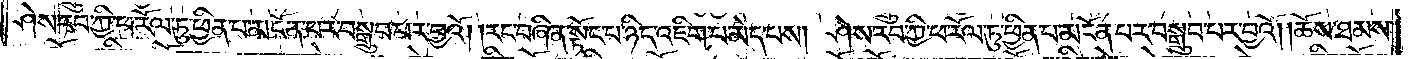ཤེས་རབ་ཀྱི་ཕ་རོལ་ཏུ་ཕྱིན་པ་མངོན་པར་བསྒྲུབ་པར་བྱའོ། །རང་བཞིན་སྟོང་པ་ཉིད་འཇིག་པ་མེད་པས། ཤེས་རབ་ཀྱི་ཕ་རོལ་ཏུ་ཕྱིན་པ་མངོན་པར་བསྒྲུབ་པར་བྱའོ། །ཆོས་ཐམས་
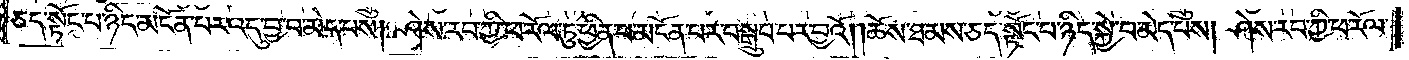ཅད་སྟོང་པ་ཉིད་མངོན་པར་འདུ་བྱ་བ་མེད་པས། ཤེས་རབ་ཀྱི་ཕ་རོལ་ཏུ་ཕྱིན་པ་མངོན་པར་བསྒྲུབ་པར་བྱའོ། །ཆོས་ཐམས་ཅད་སྟོང་པ་ཉིད་སྐྱེ་བ་མེད་པས། ཤེས་རབ་ཀྱི་ཕ་རོལ་
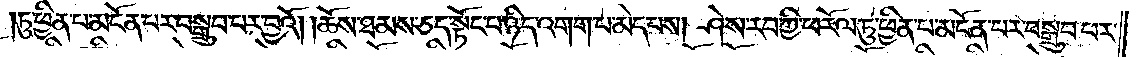ཏུ་ཕྱིན་པ་མངོན་པར་བསྒྲུབ་པར་བྱའོ། །ཆོས་ཐམས་ཅད་སྟོང་པ་ཉིད་འགག་པ་མེད་པས། ཤེས་རབ་ཀྱི་ཕ་རོལ་ཏུ་ཕྱིན་པ་མངོན་པར་བསྒྲུབ་པར་
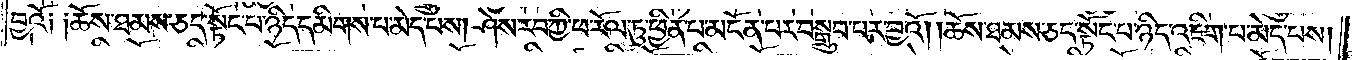བྱའོ༑ ༑ཆོས་ཐམས་ཅད་སྟོང་པ་ཉིད་དམིགས་པ་མེད་པས། ཤེས་རབ་ཀྱི་ཕ་རོལ་ཏུ་ཕྱིན་པ་མངོན་པར་བསྒྲུབ་པར་བྱའོ། །ཆོས་ཐམས་ཅད་སྟོང་པ་ཉིད་འཇིག་པ་མེད་པས།
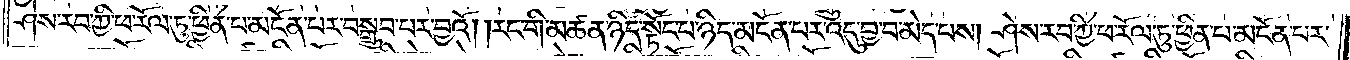ཤེས་རབ་ཀྱི་ཕ་རོལ་ཏུ་ཕྱིན་པ་མངོན་པར་བསྒྲུབ་པར་བྱའོ། །རང་གི་མཚན་ཉིད་སྟོང་པ་ཉིད་མངོན་པར་འདུ་བྱ་བ་མེད་པས། ཤེས་རབ་ཀྱི་ཕ་རོལ་ཏུ་ཕྱིན་པ་མངོན་པར་
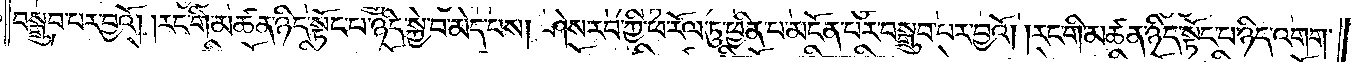བསྒྲུབ་པར་བྱའོ། །རང་གི་མཚན་ཉིད་སྟོང་པ་ཉིད་སྐྱེ་བ་མེད་པས། ཤེས་རབ་ཀྱི་ཕ་རོལ་ཏུ་ཕྱིན་པ་མངོན་པར་བསྒྲུབ་པར་བྱའོ། །རང་གི་མཚན་ཉིད་སྟོང་པ་ཉིད་འགག་
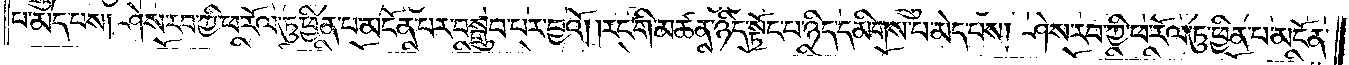པ་མེད་པས། ཤེས་རབ་ཀྱི་ཕ་རོལ་ཏུ་ཕྱིན་པ་མངོན་པར་བསྒྲུབ་པར་བྱའོ། །རང་གི་མཚན་ཉིད་སྟོང་པ་ཉིད་དམིགས་པ་མེད་པས། ཤེས་རབ་ཀྱི་ཕ་རོལ་ཏུ་ཕྱིན་པ་མངོན་
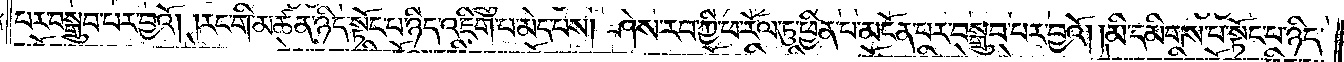པར་བསྒྲུབ་པར་བྱའོ། །རང་གི་མཚན་ཉིད་སྟོང་པ་ཉིད་འཇིག་པ་མེད་པས། ཤེས་རབ་ཀྱི་ཕ་རོལ་ཏུ་ཕྱིན་པ་མངོན་པར་བསྒྲུབ་པར་བྱའོ། །མི་དམིགས་པ་སྟོང་པ་ཉིད་
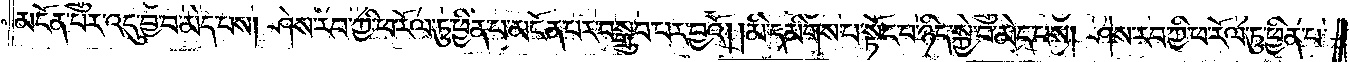མངོན་པར་འདུ་བྱ་བ་མེད་པས། ཤེས་རབ་ཀྱི་ཕ་རོལ་ཏུ་ཕྱིན་པ་མངོན་པར་བསྒྲུབ་པར་བྱའོ། །མི་དམིགས་པ་སྟོང་པ་ཉིད་སྐྱེ་བ་མེད་པས། ཤེས་རབ་ཀྱི་ཕ་རོལ་ཏུ་ཕྱིན་པ་
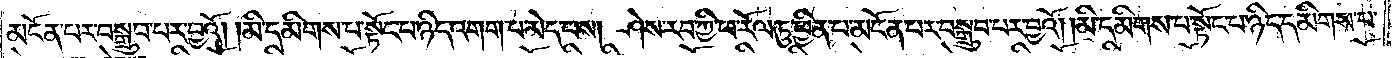མངོན་པར་བསྒྲུབ་པར་བྱའོ། །མི་དམིགས་པ་སྟོང་པ་ཉིད་འགག་པ་མེད་པས། ཤེས་རབ་ཀྱི་ཕ་རོལ་ཏུ་ཕྱིན་པ་མངོན་པར་བསྒྲུབ་པར་བྱའོ། །མི་དམིགས་པ་སྟོང་པ་ཉིད་དམིགས་པ་
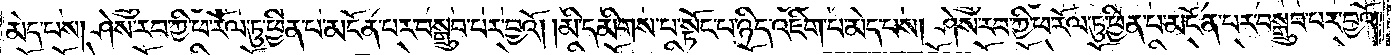མེད་པས། ཤེས་རབ་ཀྱི་ཕ་རོལ་ཏུ་ཕྱིན་པ་མངོན་པར་བསྒྲུབ་པར་བྱའོ། །མི་དམིགས་པ་སྟོང་པ་ཉིད་འཇིག་པ་མེད་པས། ཤེས་རབ་ཀྱི་ཕ་རོལ་ཏུ་ཕྱིན་པ་མངོན་པར་བསྒྲུབ་པར་བྱའོ། །
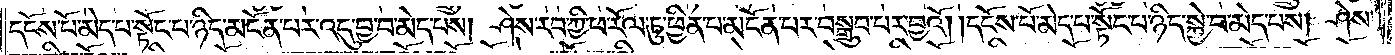དངོས་པོ་མེད་པ་སྟོང་པ་ཉིད་མངོན་པར་འདུ་བྱ་བ་མེད་པས། ཤེས་རབ་ཀྱི་ཕ་རོལ་ཏུ་ཕྱིན་པ་མངོན་པར་བསྒྲུབ་པར་བྱའོ། །དངོས་པོ་མེད་པ་སྟོང་པ་ཉིད་སྐྱེ་བ་མེད་པས། ཤེས་
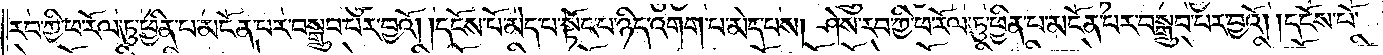རབ་ཀྱི་ཕ་རོལ་ཏུ་ཕྱིན་པ་མངོན་པར་བསྒྲུབ་པར་བྱའོ། །དངོས་པོ་མེད་པ་སྟོང་པ་ཉིད་འགག་པ་མེད་པས། ཤེས་རབ་ཀྱི་ཕ་རོལ་ཏུ་ཕྱིན་པ་མངོན་པར་བསྒྲུབ་པར་བྱའོ། །དངོས་པོ་
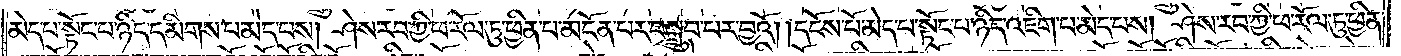མེད་པ་སྟོང་པ་ཉིད་དམིགས་པ་མེད་པས། ཤེས་རབ་ཀྱི་ཕ་རོལ་ཏུ་ཕྱིན་པ་མངོན་པར་བསྒྲུབ་པར་བྱའོ། །དངོས་པོ་མེད་པ་སྟོང་པ་ཉིད་འཇིག་པ་མེད་པས། ཤེས་རབ་ཀྱི་ཕ་རོལ་ཏུ་ཕྱིན་
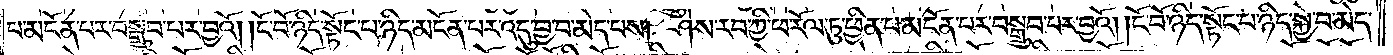པ་མངོན་པར་བསྒྲུབ་པར་བྱའོ། །ངོ་བོ་ཉིད་སྟོང་པ་ཉིད་མངོན་པར་འདུ་བྱ་བ་མེད་པས། ཤེས་རབ་ཀྱི་ཕ་རོལ་ཏུ་ཕྱིན་པ་མངོན་པར་བསྒྲུབ་པར་བྱའོ། །ངོ་བོ་ཉིད་སྟོང་པ་ཉིད་སྐྱེ་བ་མེད་
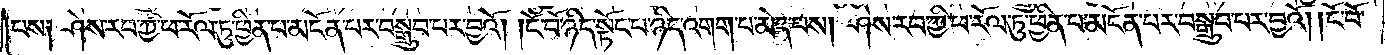པས༑ ཤེས་རབ་ཀྱི་ཕ་རོལ་ཏུ་ཕྱིན་པ་མངོན་པར་བསྒྲུབ་པར་བྱའོ། །ངོ་བོ་ཉིད་སྟོང་པ་ཉིད་འགག་པ་མེད་པས། ཤེས་རབ་ཀྱི་ཕ་རོལ་ཏུ་ཕྱིན་པ་མངོན་པར་བསྒྲུབ་པར་བྱའོ། །ངོ་བོ་
